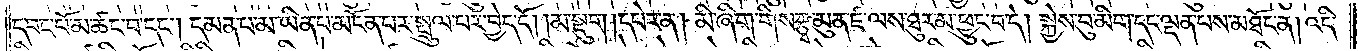དབང་པོ་མ་ཚང་བ་དང༌། དམན་པ་མ་ཡིན་པ་མངོན་པར་སྤྲུལ་པར་བྱེད་དོ། །མ་སྡུག །དཔེར་ན། མི་ཞིག་གིས་རྩྭ་མུན་ཛ་ལས་ཐུར་མ་ཕྱུང་བ་དེ། སྐྱེས་བུ་མིག་དང་ལྡན་པས་མཐོང་ན། འདི་
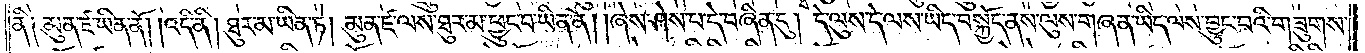ནི། མུན་ཛ་ཡིན་ནོ། །འདི་ནི། ཐུར་མ་ཡིན་ཏེ། མུན་ཛ་ལས་ཐུར་མ་ཕྱུང་བ་ཡིན་ནོ། །ཞེས་ཤེས་པ་དེ་བཞིན་དུ། དེ་ལུས་དེ་ལས་ཡིད་བསྐྱོད་ནས་ལུས་གཞན་ཡིད་ལས་བྱུང་བའི་གཟུགས་
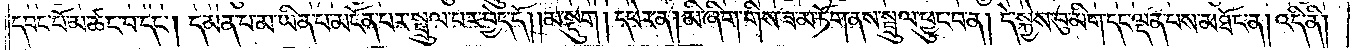དབང་པོ་མ་ཚང་བ་དང༌། དམན་པ་མ་ཡིན་པ་མངོན་པར་སྤྲུལ་པར་བྱེད་དོ། །མ་སྡུག །དཔེར་ན། མི་ཞིག་གིས་ཟ་མ་ཏོག་ནས་སྤྲུལ་ཕྱུང་བ་ན། དེ་སྐྱེས་བུ་མིག་དང་ལྡན་པས་མཐོང་ན། འདི་ནི།
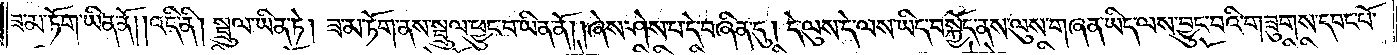ཟ་མ་ཏོག་ཡིན་ནོ། །འདི་ནི། སྤྲུལ་ཡིན་ཏེ། ཟ་མ་ཏོག་ནས་སྤྲུལ་ཕྱུང་བ་ཡིན་ནོ། །ཞེས་ཤེས་པ་དེ་བཞིན་དུ། དེ་ལུས་དེ་ལས་ཡིད་བསྐྱོད་ནས་ལུས་གཞན་ཡིད་ལས་བྱུང་བའི་གཟུགས་དབང་པོ་
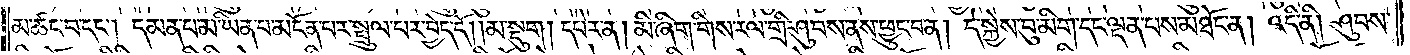མ་ཚང་བ་དང༌། དམན་པ་མ་ཡིན་པ་མངོན་པར་སྤྲུལ་པར་བྱེད་དོ། །མ་སྡུག །དཔེར་ན། མི་ཞིག་གིས་རལ་གྲི་ཤུབས་ནས་ཕྱུང་བ་ན། དེ་སྐྱེས་བུ་མིག་དང་ལྡན་པས་མཐོང་ན། འདི་ནི། ཤུབས་
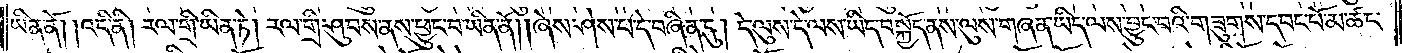ཡིན་ནོ། །འདི་ནི། རལ་གྲི་ཡིན་ཏེ། རལ་གྲི་ཤུབས་ནས་ཕྱུང་བ་ཡིན་ནོ། །ཞེས་ཤེས་པ་དེ་བཞིན་དུ། དེ་ལུས་དེ་ལས་ཡིད་བསྐྱོད་ནས་ལུས་གཞན་ཡིད་ལས་བྱུང་བའི་གཟུགས་དབང་པོ་མ་ཚང་
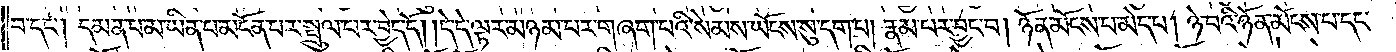བ་དང༌། དམན་པ་མ་ཡིན་པ་མངོན་པར་སྤྲུལ་པར་བྱེད་དོ། །དེ་དེ་ལྟར་མཉམ་པར་གཞག་པའི་སེམས་ཡོངས་སུ་དག་པ། རྣམ་པར་བྱང་བ། ཉོན་མོངས་པ་མེད་པ། ཉེ་བའི་ཉོན་མོངས་པ་དང༌།
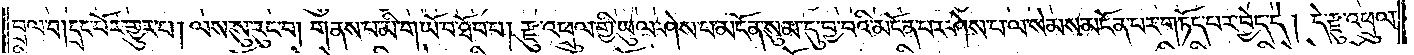བྲལ་བ། དྲང་པོར་གྱུར་པ། ལས་སུ་རུང་བ། གནས་པ་མི་གཡོ་བ་ཐོབ་པ། རྫུ་འཕྲུལ་གྱི་ཡུལ་ཤེས་པ་མངོན་སུམ་དུ་བྱ་བའི་མངོན་པར་ཤེས་པ་ལ་སེམས་མངོན་པར་གཏོད་པར་བྱེད་དེ། དེ་རྫུ་འཕྲུལ་
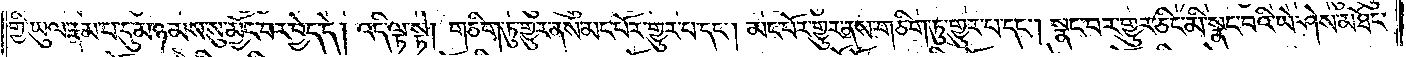གྱི་ཡུལ་རྣམ་པ་དུ་མ་ཉམས་སུ་མྱོང་བར་བྱེད་དེ། འདི་ལྟ་སྟེ། གཅིག་ཏུ་གྱུར་ནས་མང་པོར་གྱུར་པ་དང༌། མང་པོར་གྱུར་ནས་གཅིག་ཏུ་གྱུར་པ་དང༌། སྣང་བར་གྱུར་ཅིང་མི་སྣང་བའི་ཡེ་ཤེས་མཐོང་
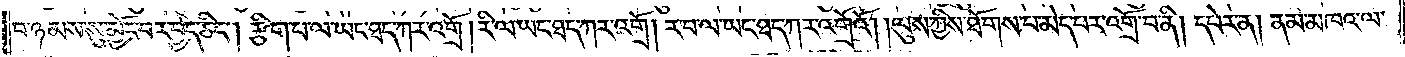བ་ཉམས་སུ་མྱོང་བར་བྱེད་ཅིང༌། རྩིག་པ་ལ་ཡང་ཐད་ཀར་འགྲོ། རི་ལ་ཡང་ཐད་ཀར་འགྲོ། ར་བ་ལ་ཡང་ཐད་ཀར་འགྲོའོ། །ལུས་ཀྱིས་ཐོགས་པ་མེད་པར་འགྲོ་བ་ནི། དཔེར་ན། ནམ་མཁའ་ལ་
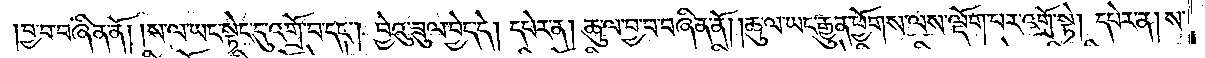བྱ་བ་བཞིན་ནོ། །ས་ལ་ཡང་སྟེང་དུ་འགྲོ་བ་དང༌། བྱེའུ་ཟུལ་བྱེད་དེ། དཔེར་ན། ཆུ་ལ་བྱ་བ་བཞིན་ནོ། །ཆུ་ལ་ཡང་རྒྱུན་ཕྱོགས་ལས་ལྡོག་པར་འགྲོ་སྟེ། དཔེར་ན། ས་
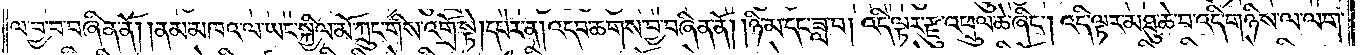ལ་བྱ་བ་བཞིན་ནོ། །ནམ་མཁའ་ལ་ཡང་སྐྱིལ་མོ་ཀྲུང་གིས་འགྲོ་སྟེ། དཔེར་ན། འདབ་ཆགས་བྱ་བཞིན་ནོ། །ཉི་མ་དང་ཟླ་བ། འདི་ལྟར་རྫུ་འཕྲུལ་ཆེ་ཞིང༌། འདི་ལྟར་མཐུ་ཆེ་བ་འདི་གཉིས་ལ་ལག་
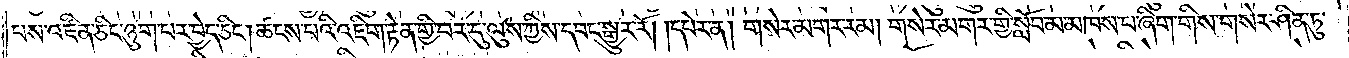པས་འཛིན་ཅིང་ཉུག་པར་བྱེད་ཅིང༌། ཚངས་པའི་འཇིག་རྟེན་གྱི་བར་དུ་ལུས་ཀྱིས་དབང་སྒྱུར་རོ། །དཔེར་ན། གསེར་མགར་རམ། གསེར་མགར་གྱི་སློབ་མ་མཁས་པ་ཞིག་གིས་གསེར་ཤིན་ཏུ་
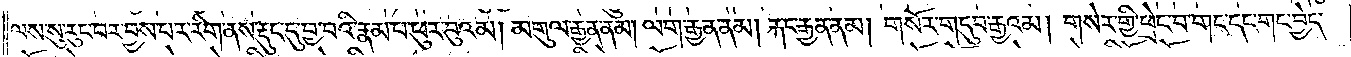ལས་སུ་རུང་བར་བྱས་པར་རིག་ནས་རྡུང་དུ་བྱ་བའི་རྣམ་པ་ཕུར་བུའམ། མགུལ་རྒྱན་ནམ། ལག་རྒྱན་ནམ། རྐང་རྒྱན་ནམ། གསོར་གདུབ་རྒྱའམ། གསེར་གྱི་ཕྲེང་བ་གང་དང་གང་བྱེད་
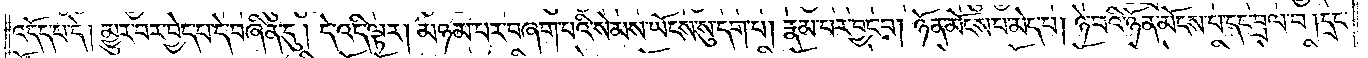འདོད་པ་དེ། མྱུར་བར་བྱེད་པ་དེ་བཞིན་དུ། དེ་འདི་ལྟར། མཉམ་པར་བཞག་པའི་སེམས་ཡོངས་སུ་དག་པ། རྣམ་པར་བྱང་བ། ཉོན་མོངས་པ་མེད་པ། ཉེ་བའི་ཉོན་མོངས་པ་དང་བྲལ་བ། དྲང་
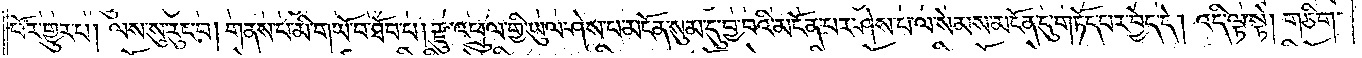པོར་གྱུར་པ། ལས་སུ་རུང་བ། གནས་པ་མི་གཡོ་བ་ཐོབ་པ། རྫུ་འཕྲུལ་གྱི་ཡུལ་ཤེས་པ་མངོན་སུམ་དུ་བྱ་བའི་མངོན་པར་ཤེས་པ་ལ་སེམས་མངོན་དུ་གཏོད་པར་བྱེད་དེ། འདི་ལྟ་སྟེ། གཅིག་
